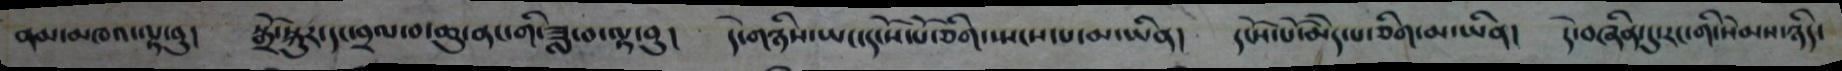ནམ་མཁའ་ལྟ་བུ། སྒྲོ་སྐུར་དང་བྲལ་བ་ཆུ་ནང་གི་ཟླ་བ་ལྟ་བུ། དེ་གཉིས་ཡང་དངོས་པོ་ཅིག་སྤངས་པ་མ་ཡིན། དངོས་པོ་མེད་པ་ཅིག་མ་ཡིན། དེ་བཞིན་དུ་རང་གི་སེམས་ཉིད་
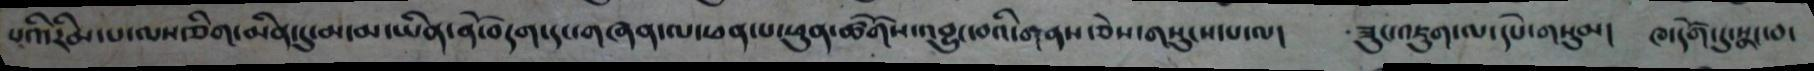པའི་རིམ་པ་ལས་ཅིག་མིན་དུ་མ་མ་ཡིན་ནོ་བདག་དང་གཞན་ལ་ཕན་པ་ཕུན་ཚོགས་འབྱུང་བའི་གནས་ཅེས་གསུངས་པ་ལ། ཟུང་འཇུག་ལ་དཔེ་གསུམ། ཁ་དོག་དུ་སྣང་བ་
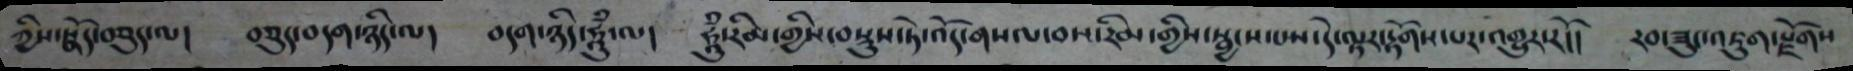ཀྱིས་སྣོད་བཅུད་ལ། བཅུད་བདག་ཉིད་ལ། བདག་ཉིད་ཧཱུཾ་ལ། ཧཱུཾ་རིམ་གྱིས་བསྡུས་ཏེ་འོག་གསལ་བས་རིམ་གྱིས་སྦྱངས་པས་དེ་ལྟར་རྟོགས་པར་འགྱུར་རཔོ།། རབ་ཟུང་འཇུག་སྫོགས
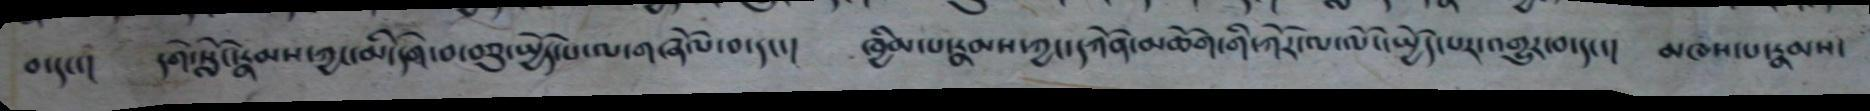བ་དང་། དགེ་སློང་རྣམས་ཀྱང་མི་དགེ་བ་བཅུ་སྤྱོད་པ་ལ་གཞོལ་བ་དང་། ཁྱིམ་པ་རྣམས་ཀྱང་དཀོན་མཆཽག་གི་ཀོར་ལ་ལོངས་སྤྱོད་པར་འགྱུར་བ་དང་། མཁས་པ་རྣམས་
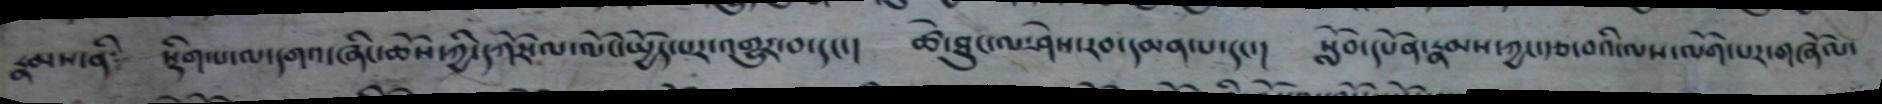རྣམས་ནི༴ སྡིག་པ་ལ་དགའ་ཞིང་ཆོས་ཀྱི་དཀོར་ལ་ལོངས་སྤྱོད་པར་འགྱུར་བ་དང་། ཚེ་ཐུང་ལ་ཤེས་རབ་དམན་པ་དང་། སློབ་དཔོན་རྣམས་ཀྱང་རྩ་བའི་ལས་ལོག་པར་གཞོལ་
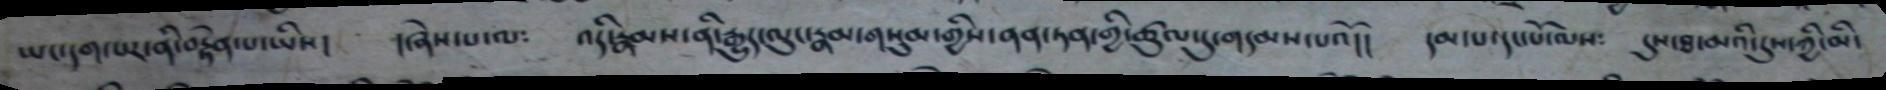ཡང་དག་པར་ནི་བརྟེན་པ་ཡིས། །ཞེས་པ་ལ༴ འདི་རྣམས་ནི་རྒྱུད་ལུང་རྣམ་གསུམ་གྱིས་ནན་ཏན་གྱི་ཚུལ་དུ་གདམས་པའོ།། དམ་པ་དང་པོ་ལས༴ དུས་ཐ་མའི་དུས་ཀྱི་མི་
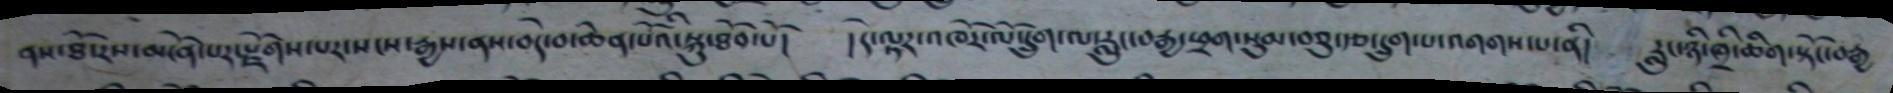ནས་ཐོ་རས་མངོན་པར་སྫོགས་པར་སངས་རྒྱས་ནས་བདེ་བ་ཆེན་པོའི་སྐུ་ཐོབ་པོ། །དེ་ལྟར་འཁོར་ལོ་དྲུག་ལ་རླུང་བརྒྱ་ཕྲག་སུམ་བཅུ་རྩ་དྲུག་འགགས་པ་ནི། རླུང་ཉི་ཁྲི་ཆིག་སྟོང་བརྒྱ
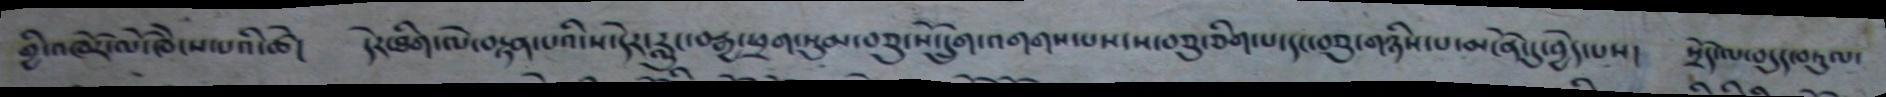གྱི་འཁོར་ལོ་ཁེངས་པའི་ཚེ། དེར་ཐིག་ལེ་བརྟན་པའི་ས་དེར་རླུང་བརྒྱ་ཕྲག་སུམ་བཅུ་སོ་དྲུག་འགགས་པས་ས་བཅུ་ཅིག་པ་དང་བཅུ་གཉིས་པ་མངོན་དུ་བྱེད་པས། སྲོད་ལ་བདུད་བཏུལ་
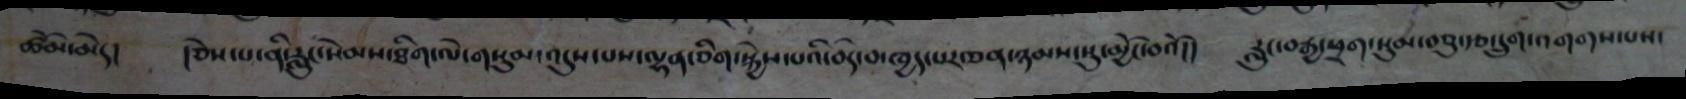ཚོམ་མེད། །ཅེས་པ་ནི་རླུང་སེམས་ཐིག་ལེ་གསུམ་འདུས་པས་ལྷན་ཅིག་སྐྱེས་པའི་བདེ་བ་ཁྱད་པར་ཅན་ཉམས་སུ་མྱོང་བའོ།། རླུང་བརྒྱ་ཕྲག་སུམ་བཅུ་རྩ་དྲུག་འགགས་པས་
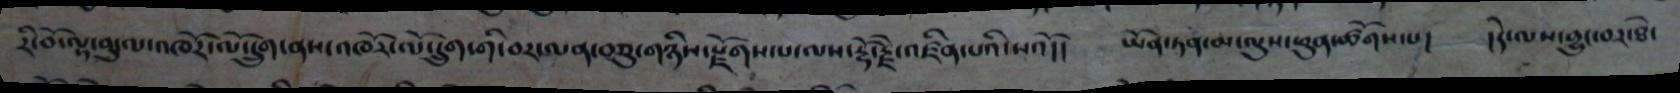རི་བོ་ལྟ་བུ་ལ་འཁོར་ལོ་དྲུག་ནས་འཁོར་ལོ་དྲུག་གི་བར་ལན་བཅུ་གཉིས་སྫོགས་པ་ལས་རྡོ་རྗེ་འཛིན་པའི་སའོ།། ཡོན་ཏན་མ་ལུས་ཕུན་ཚོགས་པ། །དེ་ལས་བྱུང་བར་ཐེ་
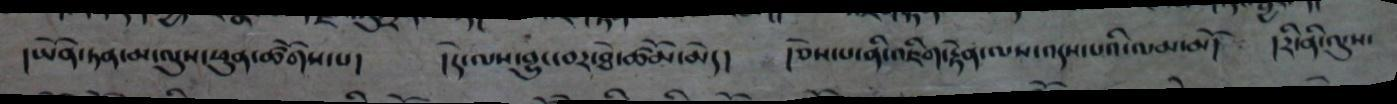།ཡོན་ཏན་མ་ལུས་ཕུན་ཚོགས་པ། །དེ་ལས་བྱུང་བར་ཐེ་ཚོམ་མེད། །ཅེས་པ་ནི་འཇིག་རྟེན་ལས་འདས་པའི་ལམ་མོ། །རི་ནི་ལུས་
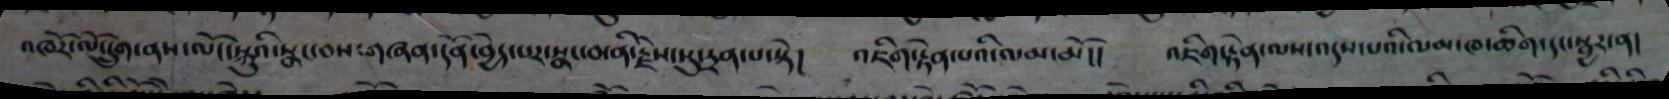འཁོར་ལོ་དྲུག་ནས་ལོང་སྐུའི་སྣང་བས་གཞན་དོན་བྱེད་པར་སྣང་བ་ནི་རྗེས་སུ་དྲན་པ་སྟེ། འཇིག་རྟེན་པའི་ལམ་མོ།། འཇིག་རྟེན་ལས་འདས་པའི་ལམ་ཁ་ཆིག་དང་སྦྱར་ན།
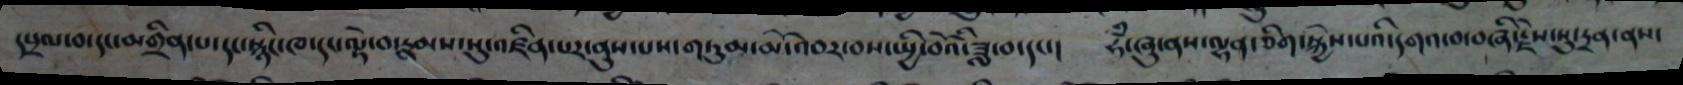དཔྲལ་བ་དང་མགྲིན་པ་དང་སྙིང་ཁ་དང་ལྟེ་བ་རྣམས་སུ་འཛིན་པར་ནུས་པས་གཏུམ་མོ་འབར་བས་སྤྱི་བོའི་ཟླ་བ་དང་། ཧཾ་ཞུ་ནས་ལྷན་ཅིག་སྐྱེས་པའི་དགའ་བ་བཞི་རྗེས་སུ་དྲན་ནས་
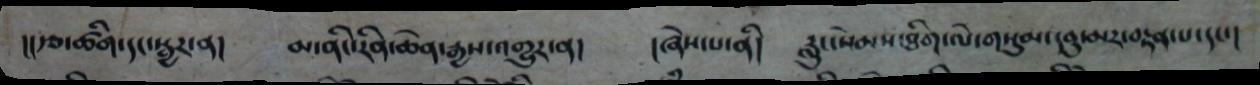།།རྩ་ཚིག་དང་སྦྱར་ན། མ་ནི་རིན་ཆེན་རྒྱས་འགྱུར་ན། །ཞེས་པ་ནི། རླུང་སེམས་ཏིག་ལེ་གསུམ་དབུ་མར་བརྟན་པ་དང་།
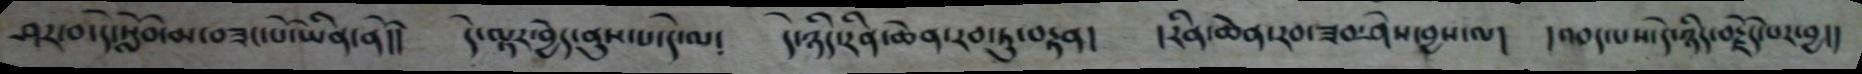ཤར་བ་དེ་སློབ་མ་བཟང་པོ་ཡིན་ནོ།། དེ་ལྟར་བྱེད་ནུས་པ་དེ་ལ༴ དེ་ཉིད་རིན་ཆེན་རབ་ཏུ་བརྟན། །རིན་ཆེན་རབ་ཟབ་ཤེས་བྱས་ལ། །འབད་པས་དེ་ཉིད་བརྗོད་པར་བྱ།།
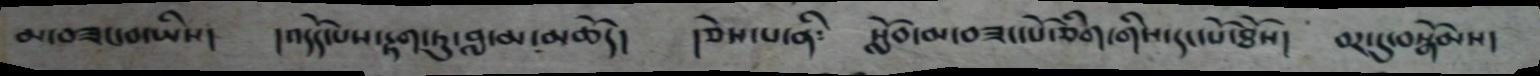མ་བཟང་བ་ཡིས། །འོདད་པས་རྟག་ཏུ་བླ་མ་མཆོད། །ཅེས་པ་ནི༴ སློབ་མ་བཟང་པོ་ཅིག་གིས་དང་པོ་ཐོས། བར་དུ་བསྒོམས།
